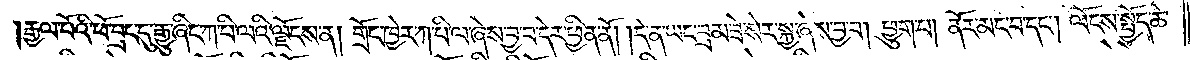རྒྱལ་པོའི་ཕོ་བྲང་དུ་རྒྱུ་ཞིང་ཀ་པི་ལའི་ལྗོངས་ན། གྲོང་ཁྱེར་ཀ་པི་ལ་ཞེས་བྱ་བ་དེར་ཕྱིན་ནོ། །དེ་ན་ཡང་བྲམ་ཟེ་སེར་སྐྱ་ཞེས་བྱ་བ། ཕྱུག་པ། ནོར་མང་བ་དང༌། ལོངས་སྤྱོད་ཆེ་
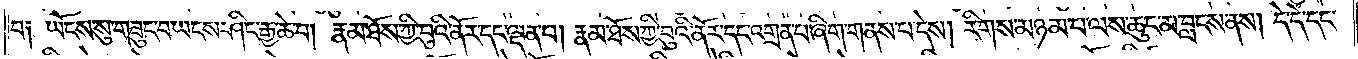བ༑ ཡོངས་སུ་གཟུང་བ་ཡངས་ཤིང་རྒྱ་ཆེ་བ། རྣམ་ཐོས་ཀྱི་བུའི་ནོར་དང་ལྡན་པ། རྣམ་ཐོས་ཀྱི་བུའི་ནོར་དང་འགྲན་པ་ཞིག་གནས་པ་དེས། རིགས་མཉམ་པ་ལས་ཆུང་མ་བླངས་ནས། དེ་དེ་དང་
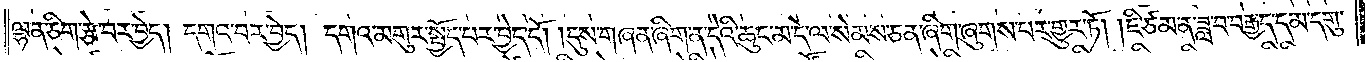ལྷན་ཅིག་རྩེ་བར་བྱེད། དགའ་བར་བྱེད། དགའ་མགུར་སྤྱོད་པར་བྱེད་དོ། །དུས་གཞན་ཞིག་ན་དེའི་ཆུང་མ་དེ་ལ་སེམས་ཅན་ཞིག་ཞུགས་པར་གྱུར་ཏོ། །ཇི་ཙམ་ན་ཟླ་བ་བརྒྱད་དམ་དགུ་
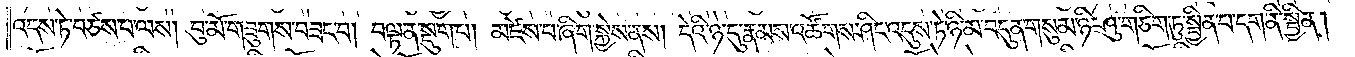འདས་ཏེ་བཙས་པ་ལས། བུ་མོ་གཟུགས་བཟང་བ། བལྟ་ན་སྡུག་པ། མཛེས་པ་ཞིག་སྐྱེས་ནས། དེའི་ཉེ་དུ་རྣམས་འཚོགས་ཤིང་འདུས་ཏེ་ཉི་མ་བདུན་གསུམ་ཉི་ཤུ་གཅིག་ཏུ་སྦྱིན་པ་དག་ནི་སྦྱིན།
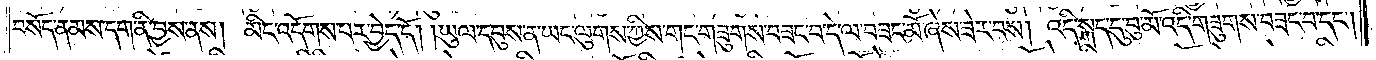བསོད་ནམས་དག་ནི་བྱས་ནས། མིང་འདོགས་པར་བྱེད་དོ། །ཡུལ་དབུས་ན་ཡང་ལུགས་ཀྱིས་གང་གཟུགས་བཟང་བ་དེ་ལ་བཟང་མོ་ཞེས་ཟེར་བས། འདི་སྐད་དུ་བུ་མོ་འདི་གཟུགས་བཟང་བ་དང༌།
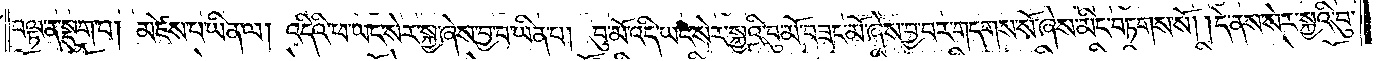བལྟ་ན་སྡུག་པ། མཛེས་པ་ཡིན་ལ། འདིའི་ཕ་ཡང་སེར་སྐྱ་ཞེས་བྱ་བ་ཡིན་པ། བུ་མོ་འདི་ཡང་སེར་སྐྱའི་བུ་མོ་བཟང་མོ་ཞེས་བྱ་བར་གདགས་སོ་ཞེས་མིང་བཏགས་སོ། །དེ་ནས་སེར་སྐྱའི་བུ་
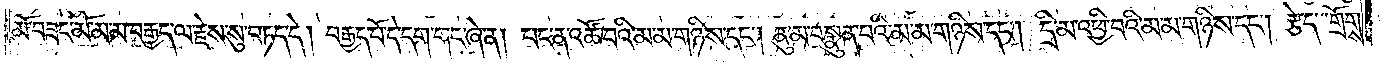མོ་བཟང་མོ་མ་མ་བརྒྱད་ལ་རྗེས་སུ་བཏད་དེ། བརྒྱད་པོ་དེ་དག་གང་ཞེ་ན། པང་ན་འཚོ་བའི་མ་མ་གཉིས་དང༌། ནུ་མ་བསྣུན་པའི་མ་མ་གཉིས་དང༌། དྲི་མ་འཕྱི་བའི་མ་མ་གཉིས་དང༌། རྩེད་གྲོགས་
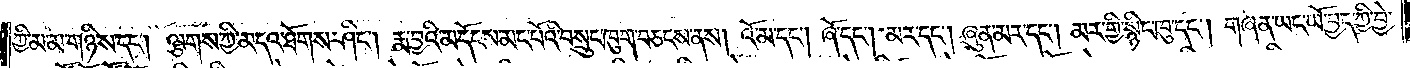ཀྱི་མ་མ་གཉིས་དང༌། ལྕགས་ཀྱི་མདའ་ཐོགས་ཤིང༌། རྨ་བྱའི་མདོངས་མང་པོའི་བསྲུང་ཁུག་བཅངས་ནས། འོ་མ་དང༌། ཞོ་དང༌། མར་དང༌། ཞུན་མར་དང༌། མར་གྱི་སྙིང་ཁུ་དང༌། གཞན་ཡང་ཡོ་བྱད་ཀྱི་བྱེ་
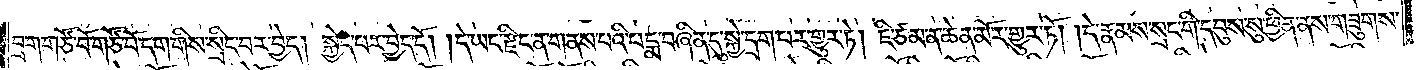བྲག་གཙོ་བོ་གཙོ་བོ་དག་གིས་སྲིང་བར་བྱེད། སྐྱེད་པར་བྱེད་དོ། །དེ་ཡང་རྫིང་ན་གནས་པའི་པདྨ་བཞིན་དུ་སྐྱེ་དྲག་པར་གྱུར་ཏེ། ཇི་ཙམ་ན་ཆེན་མོར་གྱུར་ཏོ། །དེ་རྣམས་སྲང་གི་དབུས་སུ་ཕྱིན་ནས་གཟུགས་
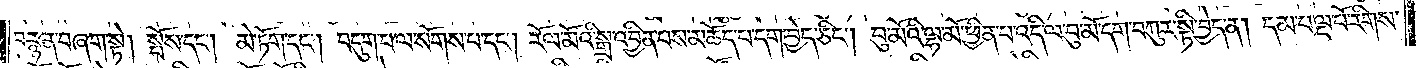བརྙན་བཞག་སྟེ། སྤོས་དང༌། མེ་ཏོག་དང༌། བདུག་པ་ལ་སོགས་པ་དང༌། རོལ་མོའི་སྒྲ་འབྱིན་པས་མཆོད་པ་དག་བྱེད་ཅིང༌། བུ་མོའི་ལྷ་མོ་ཕྱིན་པ་འདི་ལ་བུ་མོ་དག་བཀུར་སྟི་བྱེད་ན། དམ་པ་ལྔ་པོ་རིགས་
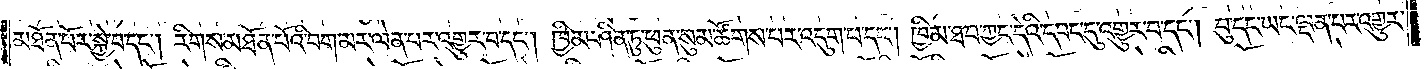མཐོན་པོར་སྐྱེ་བ་དང༌། རིགས་མཐོན་པོའི་བག་མར་ལེན་པར་འགྱུར་བ་དང༌། ཁྱིམ་ཤིན་ཏུ་ཕུན་སུམ་ཚོགས་པར་འདུག་པ་དང༌། ཁྱིམ་ཐབ་ཀྱང་དེའི་དབང་དུ་འགྱུར་བ་དང༌། བུ་དང་ཡང་ལྡན་པར་འགྱུར་
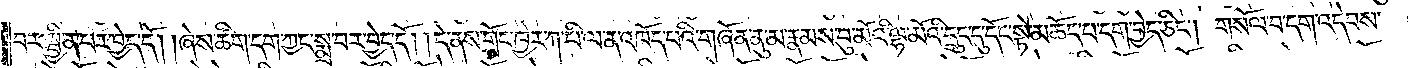བར་སྦྱིན་པར་བྱེད་དོ། །ཞེས་ཚིག་དག་ཀྱང་སྨྲ་བར་བྱེད་དོ། །དེ་ནས་གྲོང་ཁྱེར་ཀ་པི་ལ་ན་འཁོད་པའི་གཞོན་ནུ་མ་རྣམས་བུ་མོའི་ལྷ་མོའི་དྲུང་དུ་དོང་སྟེ་མཆོད་པ་དག་བྱེད་ཅིང༌། གསོལ་བ་དག་འདེབས་
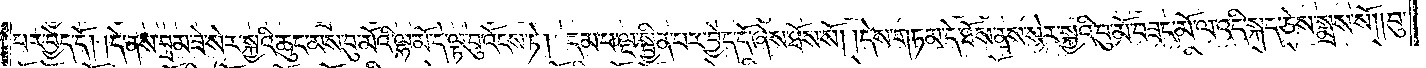པར་བྱེད་དོ། །དེ་ནས་བྲམ་ཟེ་སེར་སྐྱའི་ཆུང་མས་བུ་མོའི་ལྷ་མོ་དེ་ལྟ་བུ་འོངས་ཏེ། དམ་པ་ལྔ་སྦྱིན་པར་བྱེད་དོ་ཞེས་ཐོས་སོ། །དེས་གཏམ་དེ་ཐོས་ནས་སེར་སྐྱའི་བུ་མོ་བཟང་མོ་ལ་འདི་སྐད་ཅེས་སྨྲས་སོ། །བུ་
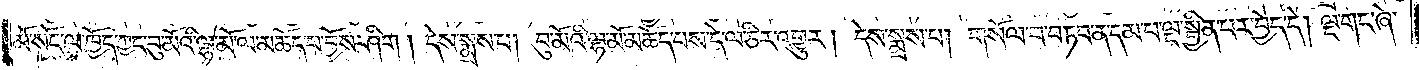མོ་སོང་ལ་ཁྱོད་ཀྱང་བུ་མོའི་ལྷ་མོ་ལ་མཆོད་པ་བྱོས་ཤིག །དེས་སྨྲས་པ། བུ་མོའི་ལྷ་མོ་མཆོད་པས་དེ་ལ་ཅིར་འགྱུར། དེས་སྨྲས་པ། གསོལ་བ་བཏབ་ན་དམ་པ་ལྔ་སྦྱིན་པར་བྱེད་དེ། ལྔ་གང་ཞེ་
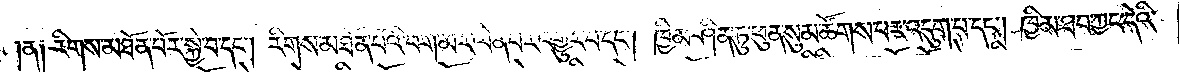ན། རིགས་མཐོན་པོར་སྐྱེ་བ་དང༌། རིགས་མཐོན་པོའི་བག་མར་ལེན་པར་འགྱུར་བ་དང༌། ཁྱིམ་ཤིན་ཏུ་ཕུན་སུམ་ཚོགས་པར་འདུག་པ་དང༌། ཁྱིམ་ཐབ་ཀྱང་དེའི་
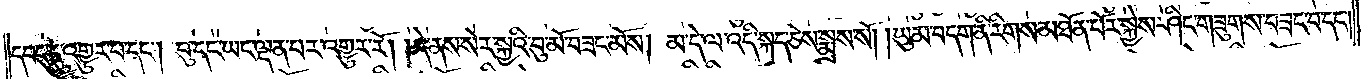དབང་དུ་འགྱུར་པ་དང༌། བུ་དང་ཡང་ལྡན་པར་འགྱུར་རོ། །དེ་ནས་སེར་སྐྱའི་བུ་མོ་བཟང་མོས། མ་དེ་ལ་འདི་སྐད་ཅེས་སྨྲས་སོ། །ཡུམ་བདག་ནི་རིགས་མཐོན་པོར་སྐྱེས་ཤིང་གཟུགས་བཟང་བ་དང༌།
